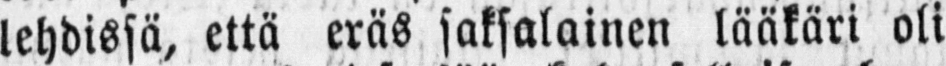lehdissä, että eräs saksalainen lääkäri oli
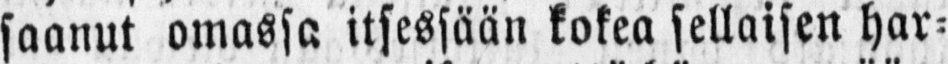saanut omassa itsessään kokea sellaisen har-
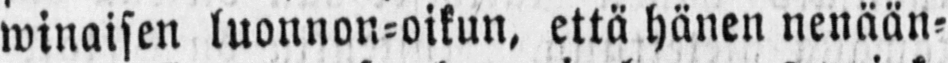winaisen luonnon-oikun, että hänen nenään-
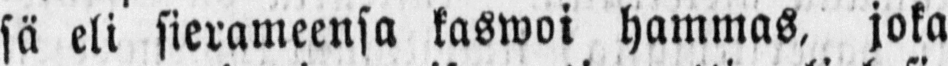sä eli sierameensa kaswoi hammas, joka
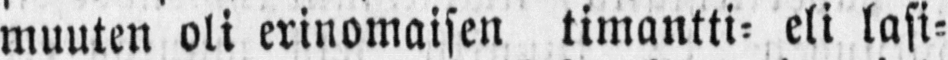muuten oli erinomaisen timantti- eli lasi-
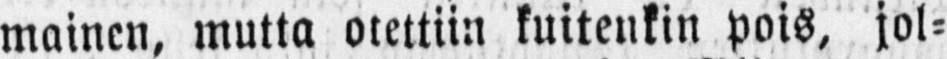mainen, mutta otettiin kuitenkin pois, jol-
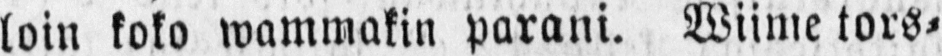loin koko wammakin parani. Wiime tors-
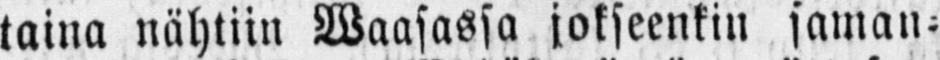taina nähtiin Wassassa jokseenkin saman-
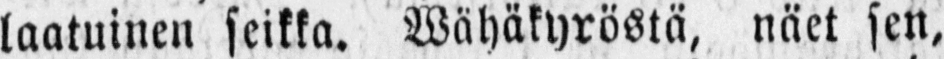laatuinen seikka. Wähäkyröstä, näet sen,
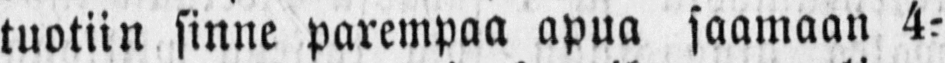tuotiin sinne parempaa apua saamaan 4-
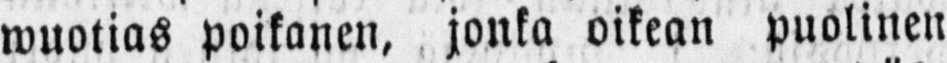wuotias poikanen, jonka oikean puolinen
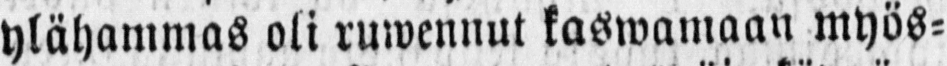ylähammas oli ruwennut kaswamaan myös-
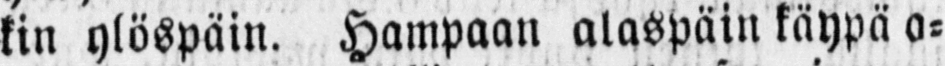kin ylöspäin. Hampaan alaspäin käypä o-
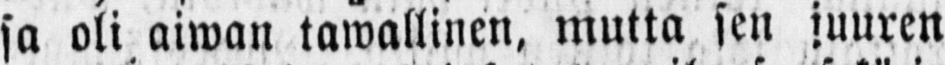sa oli aiwan tawallinen, mutta sen juuren
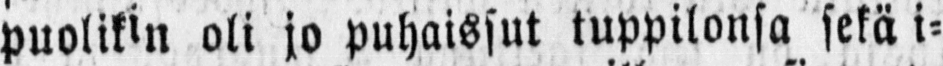puolikin oli jo puhaissut tuppilonsa sekä i-
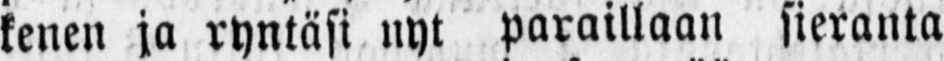kenen ja ryntäsi nyt paraillaan sieranta
